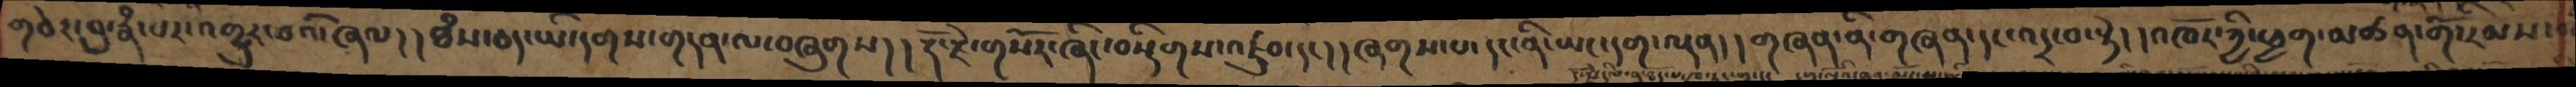གཅེར་བུ་རྣཾ་པར་འགྱུར་བའི་ཞལ། །ཐཾས་ཅད་ཡི་དགས་གདན་ལ་བཞུགས། །རྡོ་རྗེ་གསོར་ཞིང་བསྡིགས་འཛུབ་དང། །ཞགས་པ་དང་ནི་ཡང་དག་ལྡན། །གཞན་ནི་གཞན་དང་འདྲ་བ་སྟེ། །འཁོར་ཀྱི་ཕྱག་མཚན་གོ་རིམས་
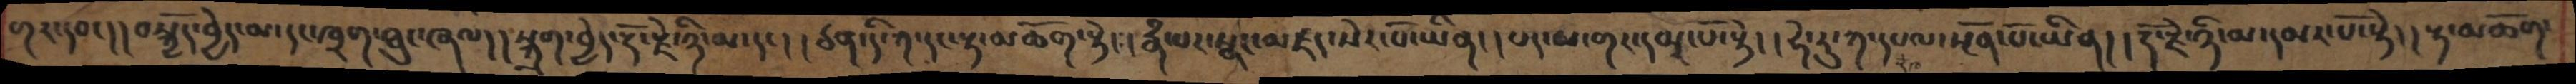གར་དབང། །བསྐྱོད་བྱེད་མ་དང་ཁྲག་ཐུང་ཞལ། །སྐྲག་བྱེད་རྡོ་རྗེ་ཉི་མ་དང། །ཙན་དི་ཀ་དང་རྟ་མཆོག་སྟེ། །རྣཾ་པར་སྣང་མཛད་སེར་པོ་ཡིན། །པད་མ་གར་དམར་པོ་སྟེ། །ཧེ་རུ་ཀ་དཔལ་སྔོན་པོ་ཡིན། །རྡོ་རྗེ་ཉི་མ་དམར་པོ་སྟེ། །རྟ་མཆོག་
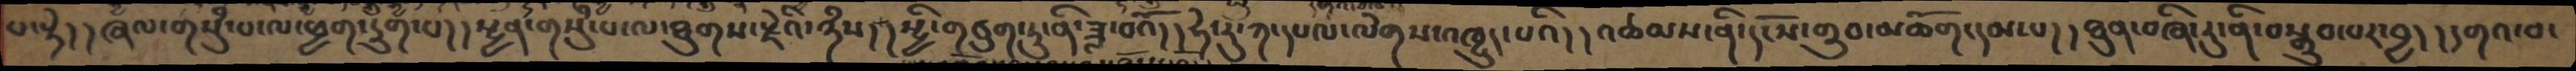པ་སྟེ། །ཞལ་གསུཾ་པ་ལ་ཕྱག་དྲུག་པ། །སྤྱན་གསུཾ་པ་ལ་ཐུགས་རྗེའི་ཉཾས། །སྤྱི་གཙུག་ཏུ་ནི་ཟླ་བའོ། །ཧེ་རུ་ཀ་དཔལ་ལེགས་འཁྱུད་པའི། །འཚམས་ནི་དངོས་གྲུབ་མཆོག་དམ་པ། །ཐུན་བཞི་རུ་ནི་བསྒྲུབ་པར་བྱ། །དགའ་བ་
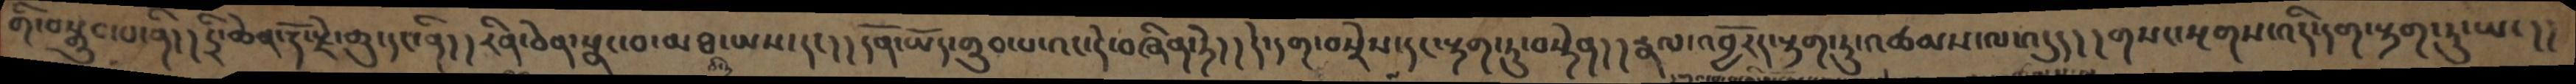གི་བསྒྲུབ་པ་ནི། །དྲི་ཆེན་རྡོ་རྗེ་ཆུ་དང་ནི། །རིན་ཅེན་སྣང་བ་མཐ་ཡས་དང། །དོན་ཡོན་གྲུབ་པ་འང་དེ་བཞིན་ཏེ། །དེ་དག་བསྲེས་དང་རྟག་ཏུ་བསྟེན། །རྣལ་འབྱོརད་རྟག་ཏུ་འཚམས་ལ་འདུད། །གསང་སྔགས་འདི་དག་རྟག་ཏུ་ཡང། །
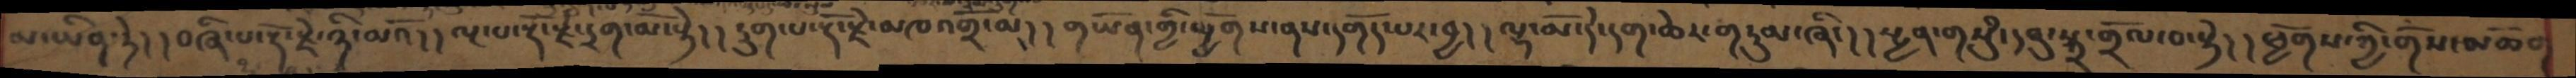མ་ཡིན་ཏེ། །བཞི་པ་རྡོ་རྗེ་ཉི་མའོ། །ལྔ་པ་རྡོ་རྗེ་དྲག་མོ་སྟེ། །དྲུག་པ་རྡོ་རྗེ་མཁའགྲོ་མ། །གཡོན་གྱི་ཕྱོགས་ནས་དགོད་པར་བྱ། །ལྷ་མོ་དེ་དག་ཆེར་གཏུམ་ཞིང། །སྤྱན་གསུཾ་དབུ་སྐྲ་གྲོལ་བ་སྟེ། །ཕྱོགས་ཀྱི་གོས་མཆོག
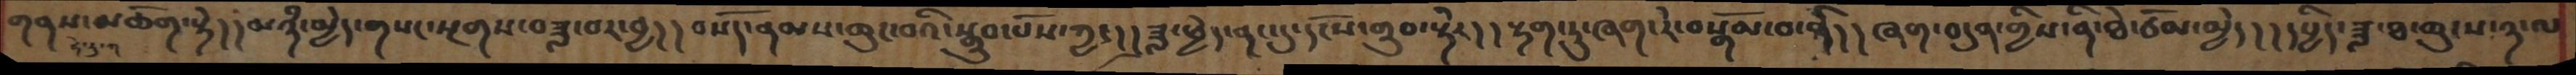གནས་མཆོག་སྟེ། །མཉཾ་མྱེད་གསང་སྔགས་བཟླ་བར་བྱ། །བསོད་ནམས་ཆུང་བའི་སྒྲུབ་པོས་ཀྱང། །ཟླ་ཕྱེད་ནང་དུ་དངོས་གྲུབ་སྟེ། །རྟག་ཏུ་ཞག་རེ་བསྒོམ་བ་ནི། །ཞག་བདུན་གྱིས་ནི་ཐེ་ཙོམ་མྱེད། །དཔྱིད་ཟླ་ཐ་ཆུངས་ཉ་ལ
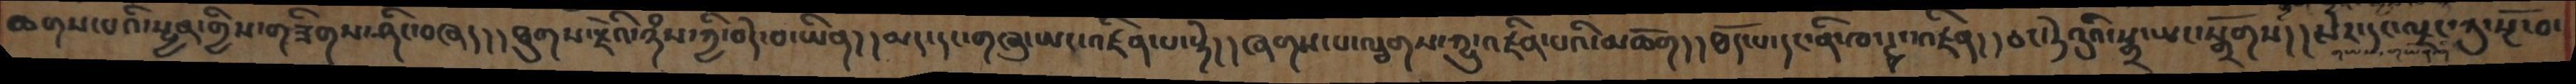ཆགས་པའི་སྤྱན་གྱིས་གཟིགས་ཤིང་བཞད། །ཐུགས་རྗེའི་ཉཾས་ཀྱི་བདེ་བ་ཡིན། །མད་དང་གཞུ་ཡང་འཛིན་པ་སྟེ། །ཞགས་པ་ལྕགས་ཀྱུ་འཛིན་པའི་མཆོག། །ཐོད་པ་དང་ནི་ཁ་ཊྭང་འཛིན། །ཅང་ཏེའུའི་སྒྲ་ཡང་སྒྲོགས། །སེར་དང་ལྗང་ཀུ་སྔོ་བ་
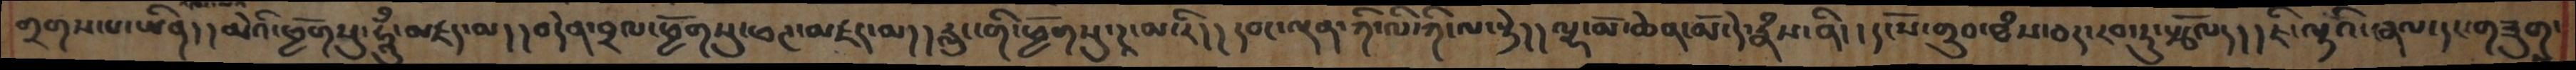གྲགས་པ་ཡིན། །མེའི་ཕྱོགསུ་ཧཱུྃ་མཛད་མ། །བདེན་བྲལ་ཕྱོགསུ་ཕཊ་མཛད་མ། །རླུང་གི་ཕྱོགསུ་ཌཱ་མ་རི། །དབང་ལྡན་ཀི་ལི་ཀི་ལ་སྟེ། །ལྷ་མོ་ཆེན་མོ་དེ་རྣཾས་ནི། །དངོས་གྲུབ་ཐཾས་ཅད་རབ་ཏུ་སྩོལད། །ཇི་ལྟའི་ཞལ་དང་གཟུགས་
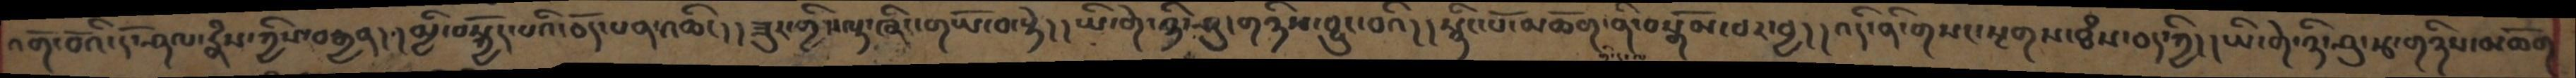འགོ་བོའི་དོ་ཤལ་རྣཾས་ཀྱིས་བརྒྱན། །མྱི་བསྐྱོད་པའི་ཅོད་པན་འཆིང། །ཟུར་གྱི་ལྟ་ཞིང་གཡོ་བ་སྟེ། །ཡི་གེ་ཉི་ཤུ་གཉིས་བྱུང་བའི། །སྙིང་པོ་མཆོག་ནི་བསྒོམ་བར་བྱ། །འདི་ནི་གསང་སྔགས་ཐཾས་ཅད་ཀྱི། །ཡི་གེ་ཉི་ཤུ་རྩ་གཉིས་མཆོག
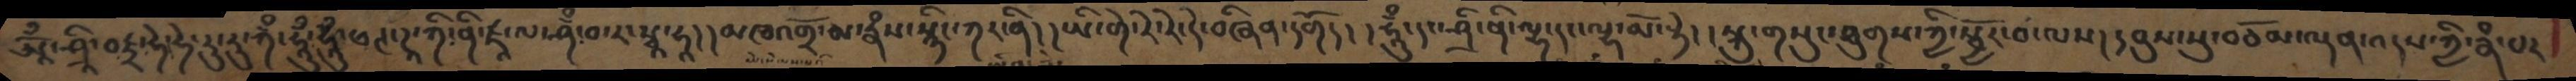ཨཱོྃ་ཤྲཱི་བཛྲ་ཧེ་ཧེ་རུ་རུ་ཀྃ་ཧཱུྃ་ཧཱུྃ་ཕཊ་ཌཱ་ཀི་ནི་ཛྭ་ལ་ཤྃ་བ་ར་སྭཱ་ཧཱ། །མཁའགྲོ་མ་རྣཾས་སྙིང་ཀར་ནི། །ཡི་གེ་རེ་རེ་དེ་བཞིན་དགོད། །ཧཱུྃ་དང་ཤྲི་ནི་ལྷ་དང་ལྷ་མོ་སྟེ། །སྐུ་གསུང་ཐུགས་ཀྱི་སྦྱོར་བ་ལས། །དབུས་སུ་བཅོམ་ལྡན་འདས་ཀྱི་རྣཾ་པར
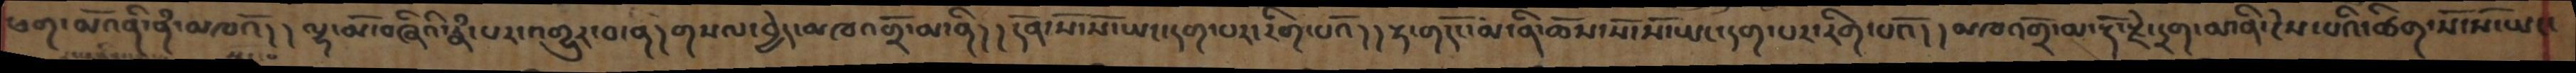ཕག་མོའནི་ནཾ་མཁའོ། །ལྷ་མོ་བཞིའི་རྣཾ་པར་འགྱུར་བ་ན། །གསལ་བྱེད་མཁའགྲོ་མ་ནི། །དོན་སོ་སོ་ཡང་དག་པར་རིག་པའོ། །རྟ་གདོང་མ་ནི་ཆོས་སོ་སོ་ཡང་དག་པར་རིག་པའོ། །མཁའགྲོ་མ་རྡོ་རྗེ་དྲག་མ་ནི་ངེས་པའི་ཚིག་སོ་སོ་ཡང་
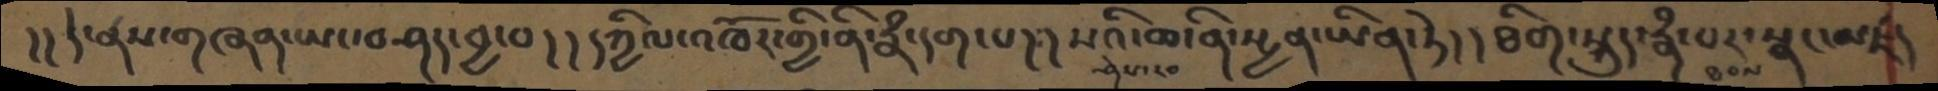།།དེ་ནས་གཞན་ཡང་བཤད་བྱ་བ། །དཀྱིལ་འཁོར་གྱི་ནི་རྣཾ་དག་པ། །སའི་ཆ་ནི་སྤྱན་ཡིན་ཏེ། །ཐིག་སྐུད་རྣཾ་པར་སྣང་མཛད
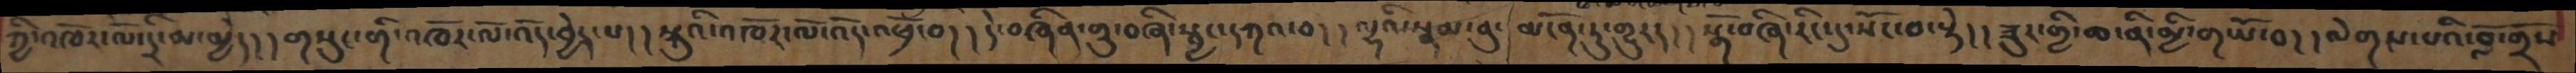ཀྱི་འཁོར་ལོ་དྲི་མ་མྱེད། །གསུང་གི་འཁོར་ལོ་འོད་བྱེད་པ། །སྐུའི་འཁོར་ལོ་འོད་འཕྲོ་བ། །དེ་བཞིན་གྲུ་བཞི་སྦྱང་དཀའ་བ། །ལྷའི་སྣམ་བུ་མངོན་ཏུ་གྱུརད །སྒོ་བཞི་རིང་དུ་སོང་བ་སྟེ། །ཟུར་གྱི་ཆ་ནི་མྱི་གཡོ་བ། །ལེགས་པའི་བློ་གྲོས་
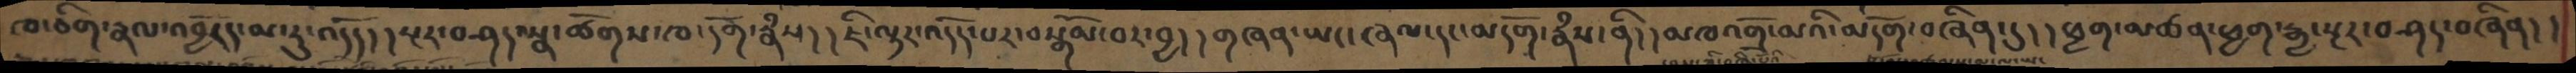ཁ་ཅིག་རྣལ་འབྱོརད་མ་རུ་འདོད། །སྔར་བཤད་སྣ་ཚོགས་ཁ་དོག་རྣཾས། །ཇི་ལྟར་འདོད་པར་བསྒོམ་བར་བྱ། །གཞན་ཡང་ཞལ་དང་མདོག་རྣཾས་ནི། །མཁའགྲོ་མའི་མདོག་བཞིན་དུ། །ཕྱག་མཚན་ཕྱག་རྒྱ་སྔར་བཤད་བཞིན། །
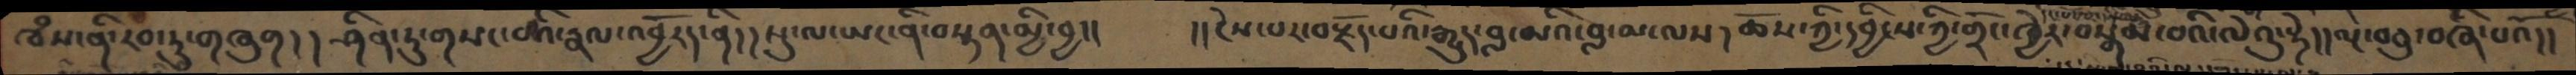ཁཾས་ནི་རབ་ཏུ་གཞུག། །ཤིན་ཏུ་གསང་བའི་རྣལ་འབྱོརད་ནི། །སུ་ལ་ཡང་ནི་བསྟན་མྱི་བྱ།།    །།ངེས་པར་བརྗོད་པའི་རྒྱུད་བླ་མའི་བླ་མ་ལས། ཆོས་ཀྱི་དབྱིངས་ཀྱི་གྲོང་ཁྱེར་བསྒོམ་བའི་ལེའུ་སྟེ།། ལྔ་བཅུ་བཞི་པའོ།།
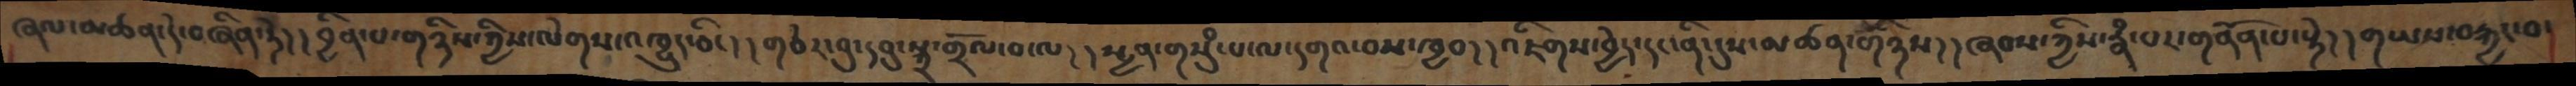ཞལ་མཚན་དེ་བཞིན་ཏེ། །བྱིན་པ་གཉིས་ཀྱིས་ལེགས་འཁྱུད་ཅིང། །གཅེར་བུ་དབུ་སྐྲ་གྲོལ་བ་ལ། །སྤྱན་གསུཾ་པ་ལ་དགའ་བས་ཁྱབ། །འཇིགས་བྱེད་དང་ནི་དུས་མཚན་གཉིས། །ཞབས་ཀྱིས་རྣཾ་པར་གནོན་པ་སྟེ། །གཡས་བརྐྱང་བ་
